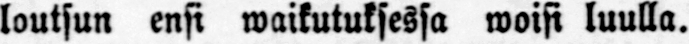loutsun ensi waikutuksessa woisi luulla.
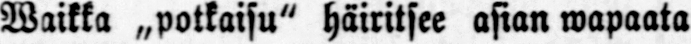Waikka „potkaisu" häiritsee asian wapaata
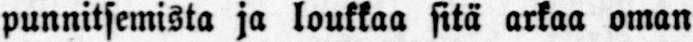punnitsemista ja loukkaa sitä arkaa oman
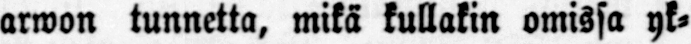arwon tunnetta, mikä kullakin omissa yk-
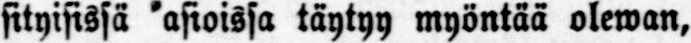sityisissä asioissa täytyy myöntää olewan,
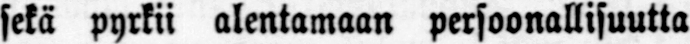sekä pyrkii alentamaan persoonallisuutta
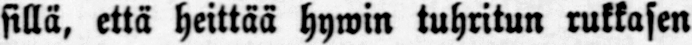sillä, että heittää hywin tuhritun rukkasen
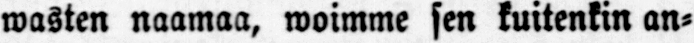wasten naamaa, woimme sen kuitenkin an-
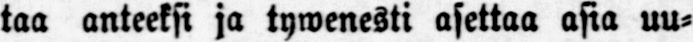taa anteeksi ja tywenesti asettaa asia uu-
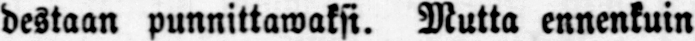destaan punnittawaksi. Mutta ennenkuin
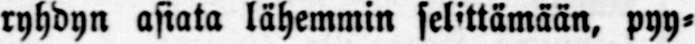ryhdyn asiata lähemmin selittämään, pyy-
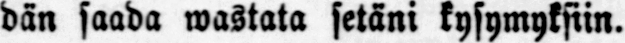dän saada wastata setäni kysymyksiin.
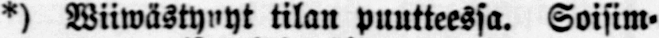*) Wiiwästynyt tilan puutteessa. Soisim-
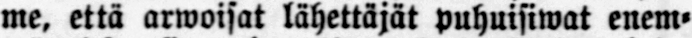me, että arwoisat lähettäjät puhuisiwat enem-
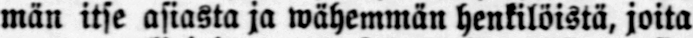män itse asiasta ja wähemmän henkilöistä, joita
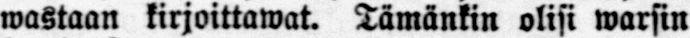wastaan kirjoittawat. Tämänkin olisi warsin
